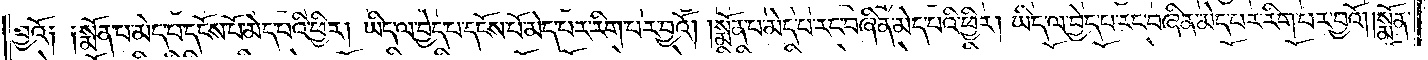བྱའོ༏ ༏སྨོན་པ་མེད་པ་དངོས་པོ་མེད་པའི་ཕྱིར། ཡིད་ལ་བྱེད་པ་དངོས་པོ་མེད་པར་རིག་པར་བྱའོ། །སྨོན་པ་མེད་པ་རང་བཞིན་མེད་པའི་ཕྱིར། ཡིད་ལ་བྱེད་པ་རང་བཞིན་མེད་པར་རིག་པར་བྱའོ། །སྨོན་
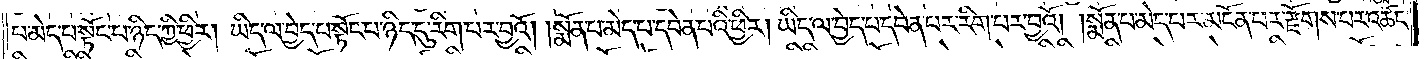པ་མེད་པ་སྟོང་པ་ཉིད་ཀྱི་ཕྱིར། ཡིད་ལ་བྱེད་པ་སྟོང་པ་ཉིད་དུ་རིག་པར་བྱའོ། །སྨོན་པ་མེད་པ་དབེན་པའི་ཕྱིར། ཡིད་ལ་བྱེད་པ་དབེན་པར་རིག་པར་བྱའོ། །སྨོན་པ་མེད་པ་མངོན་པར་རྫོགས་པར་འཚང་
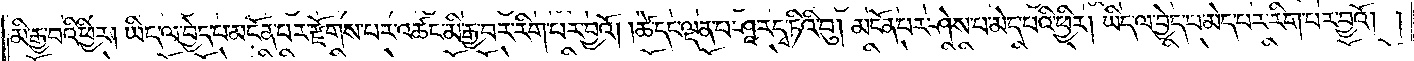མི་རྒྱ་བའི་ཕྱིར། ཡིད་ལ་བྱེད་པ་མངོན་པར་རྫོགས་པར་འཚང་མི་རྒྱ་བར་རིག་པར་བྱའོ། ཚེ་དང་ལྡན་པ་ཤཱ་ར་དྭ་ཏིའི་བུ། མངོན་པར་ཤེས་པ་མེད་པའི་ཕྱིར། ཡིད་ལ་བྱེད་པ་མེད་པར་རིག་པར་བྱའོ། །
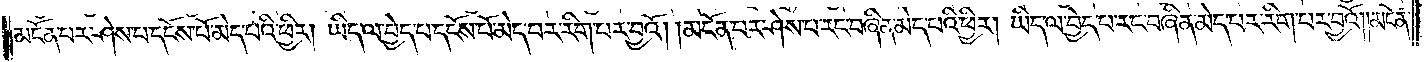མངོན་པར་ཤེས་པ་དངོས་པོ་མེད་པའི་ཕྱིར། ཡིད་ལ་བྱེད་པ་དངོས་པོ་མེད་པར་རིག་པར་བྱའོ། །མངོན་པར་ཤེས་པ་རང་བཞིན་མེད་པའི་ཕྱིར། ཡིད་ལ་བྱེད་པ་རང་བཞིན་མེད་པར་རིག་པར་བྱའོ། །མངོན་
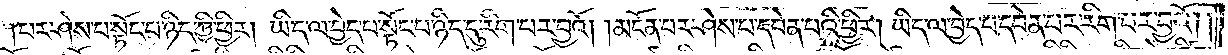པར་ཤེས་པ་སྟོང་པ་ཉིད་ཀྱི་ཕྱིར། ཡིད་ལ་བྱེད་པ་སྟོང་པ་ཉིད་དུ་རིག་པར་བྱའོ། །མངོན་པར་ཤེས་པ་དབེན་པའི་ཕྱིར། ཡིད་ལ་བྱེད་པ་དབེན་པར་རིག་པར་བྱའོ། །
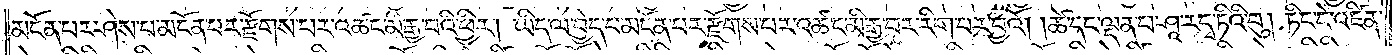མངོན་པར་ཤེས་པ་མངོན་པར་རྫོགས་པར་འཚང་མི་རྒྱ་བའི་ཕྱིར། ཡིད་ལ་བྱེད་པ་མངོན་པར་རྫོགས་པར་འཚང་མི་རྒྱ་བར་རིག་པར་བྱའོ། །ཚེ་དང་ལྡན་པ་ཤཱ་ར་དྭ་ཏིའི་བུ། ཏིང་ངེ་འཛིན་
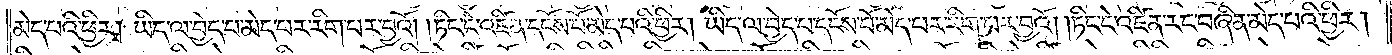མེད་པའི་ཕྱིར། ཡིད་ལ་བྱེད་པ་མེད་པར་རིག་པར་བྱའོ། །ཏིང་ངེ་འཛིན་དངོས་པོ་མེད་པའི་ཕྱིར། ཡིད་ལ་བྱེད་པ་དངོས་པོ་མེད་པར་རིག་པར་བྱའོ། །ཏིང་ངེ་འཛིན་རང་བཞིན་མེད་པའི་ཕྱིར།
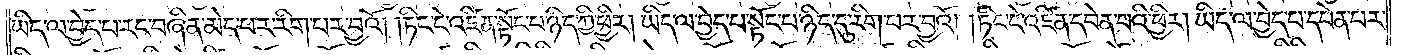ཡིད་ལ་བྱེད་པ་རང་བཞིན་མེད་པར་རིག་པར་བྱའོ། ཏིང་ངེ་འཛིན་སྟོང་པ་ཉིད་ཀྱི་ཕྱིར། ཡིད་ལ་བྱེད་པ་སྟོང་པ་ཉིད་དུ་རིག་པར་བྱའོ། །ཏིང་ངེ་འཛིན་དབེན་པའི་ཕྱིར། ཡིད་ལ་བྱེད་པ་དབེན་པར་
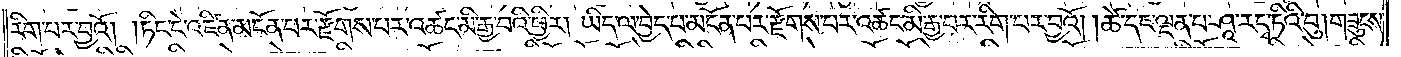རིག་པར་བྱའོ། །ཏིང་ངེ་འཛིན་མངོན་པར་རྫོགས་པར་འཚང་མི་རྒྱ་བའི་ཕྱིར། ཡིད་ལ་བྱེད་པ་མངོན་པར་རྫོགས་པར་འཚང་མི་རྒྱ་བར་རིག་པར་བྱའོ། །ཚེ་དང་ལྡན་པ་ཤཱ་ར་དྭ་ཏིའི་བུ། གཟུངས་
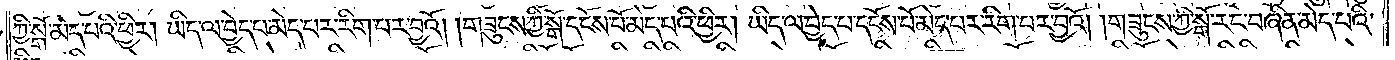ཀྱི་སྒོ་མེད་པའི་ཕྱིར། ཡིད་ལ་བྱེད་པ་མེད་པར་རིག་པར་བྱའོ། །གཟུངས་ཀྱི་སྒོ་དངོས་པོ་མེད་པའི་ཕྱིར། ཡིད་ལ་བྱེད་པ་དངོས་པོ་མེད་པར་རིག་པར་བྱའོ། །གཟུངས་ཀྱི་སྒོ་རང་བཞིན་མེད་པའི་
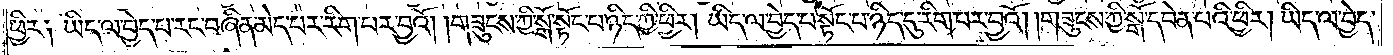ཕྱིར། ཡིད་ལ་བྱེད་པ་རང་བཞིན་མེད་པར་རིག་པར་བྱའོ། །གཟུངས་ཀྱི་སྒོ་སྟོང་པ་ཉིད་ཀྱི་ཕྱིར། ཡིད་ལ་བྱེད་པ་སྟོང་པ་ཉིད་དུ་རིག་པར་བྱའོ། །གཟུངས་ཀྱི་སྒོ་དབེན་པའི་ཕྱིར། ཡིད་ལ་བྱེད་
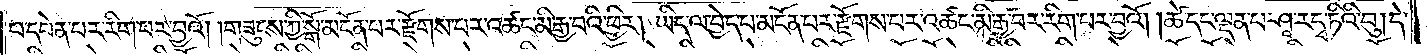པ་དབེན་པར་རིག་པར་བྱའོ། །གཟུངས་ཀྱི་སྒོ་མངོན་པར་རྫོགས་པར་འཚང་མི་རྒྱ་བའི་ཕྱིར། ཡིད་ལ་བྱེད་པ་མངོན་པར་རྫོགས་པར་འཚང་མི་རྒྱ་བར་རིག་པར་བྱའོ། །ཚེ་དང་ལྡན་པ་ཤཱ་ར་དྭ་ཏིའི་བུ། དེ་
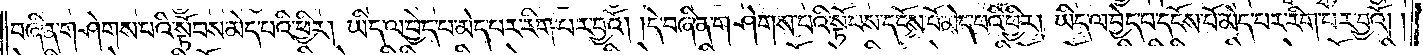བཞིན་གཤེགས་པའི་སྟོབས་མེད་པའི་ཕྱིར། ཡིད་ལ་བྱེད་པ་མེད་པར་རིག་པར་བྱའོ། །དེ་བཞིན་གཤེགས་པའི་སྟོབས་དངོས་པོ་མེད་པའི་ཕྱིར། ཡིད་ལ་བྱེད་པ་དངོས་པོ་མེད་པར་རིག་པར་བྱའོ། །
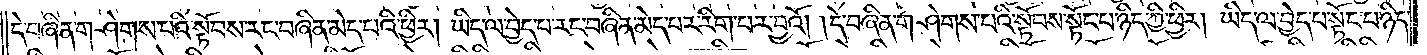དེ་བཞིན་གཤེགས་པའི་སྟོབས་རང་བཞིན་མེད་པའི་ཕྱིར། ཡིད་ལ་བྱེད་པ་རང་བཞིན་མེད་པར་རིག་པར་བྱའོ། །དེ་བཞིན་གཤེགས་པའི་སྟོབས་སྟོང་པ་ཉིད་ཀྱི་ཕྱིར། ཡིད་ལ་བྱེད་པ་སྟོང་པ་ཉིད་
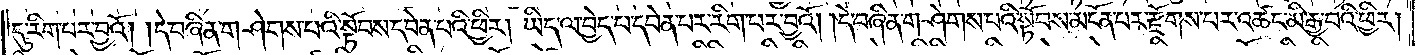དུ་རིག་པར་བྱའོ། །དེ་བཞིན་གཤེགས་པའི་སྟོབས་དབེན་པའི་ཕྱིར། ཡིད་ལ་བྱེད་པ་དབེན་པར་རིག་པར་བྱའོ། །དེ་བཞིན་གཤེགས་པའི་སྟོབས་མངོན་པར་རྫོགས་པར་འཚང་མི་རྒྱ་བའི་ཕྱིར།
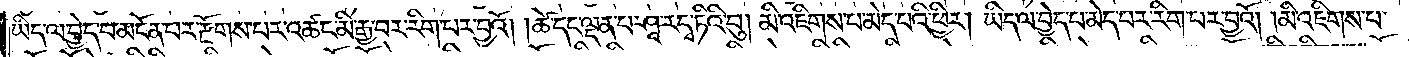ཡིད་ལ་བྱེད་པ་མངོན་པར་རྫོགས་པར་འཚང་མི་རྒྱ་བར་རིག་པར་བྱའོ། །ཚེ་དང་ལྡན་པ་ཤཱ་ར་དྭ་ཏིའི་བུ། མི་འཇིགས་པ་མེད་པའི་ཕྱིར། ཡིད་ལ་བྱེད་པ་མེད་པར་རིག་པར་བྱའོ། །མི་འཇིགས་པ་
